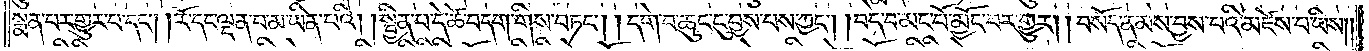སྨན་པར་གྱུར་པ་དང༌། །རོ་དང་ལྡན་པ་མ་ཡིན་པའི། །སྦྱིན་པ་དེ་ཚེ་བདག་གིས་བཏང༌། །དགེ་བ་ཆུང་ངུ་བྱས་པས་ཀྱང༌། །བདེ་བ་མང་པོ་མྱོང་བར་གྱུར། །བསོད་ནམས་བྱས་པའི་མཛེས་པ་ཡིས༎
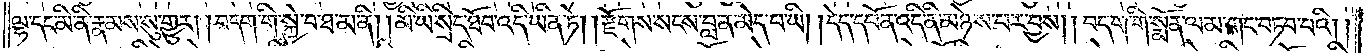ལྷ་དང་མི་ནི་རྣམས་སུ་གྱུར། །བདག་གི་སྐྱེ་བ་ཐ་མ་ནི། །མི་ཡི་སྲིད་ཐོབ་འདི་ཡིན་ཏེ། །རྫོགས་སངས་བླ་ན་མེད་པ་ཡི། །དེད་དཔོན་འདི་ནི་མཉེས་པར་བྱས། །བདག་གི་སྨོན་ལམ་གང་བཏབ་པའི། །
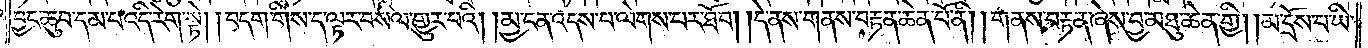བྱང་ཆུབ་དམ་པ་འདི་རེག་སྟེ། །བདག་གིས་ད་ལྟར་བསིལ་གྱུར་པའི། །མྱ་ངན་འདས་པ་ལེགས་པར་ཐོབ། །དེ་ནས་གནས་བརྟེན་ཆེན་པོ་ནི། །གནས་བརྟེན་ཞེས་བྱ་མཐུ་ཆེན་གྱི། །མ་དྲོས་པ་ཡི་
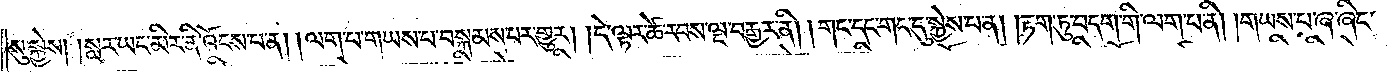སུ་སྐྱེས། །སླར་ཡང་མིར་ནི་འོངས་པ་ན། །ལག་པ་གཡས་པ་བསྐམས་པར་གྱུར། །དེ་ལྟར་ཚེ་རབས་ལྔ་བརྒྱར་ནི། །གང་དང་གང་དུ་སྐྱེས་པ་ན། །རྟག་ཏུ་བདག་གི་ལག་པ་ནི། །གཡས་པ་ཞ་ཞིང་
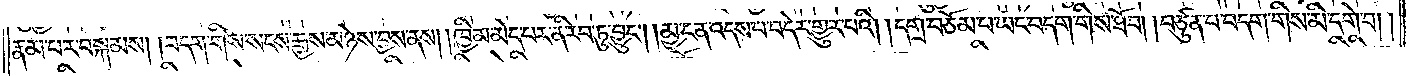རྣམ་པར་བསྐམས། །བདག་གིས་སངས་རྒྱས་མཉེས་བྱས་ནས། །ཁྱིམ་མེད་པར་ནི་རབ་ཏུ་བྱུང༌། །མྱ་ངན་འདས་པ་བདེར་གྱུར་པའི། །དགྲ་བཅོམ་པ་ཡང་བདག་གིས་ཐོབ། །བཙུན་པ་བདག་གིས་མི་དགེ་བ། །
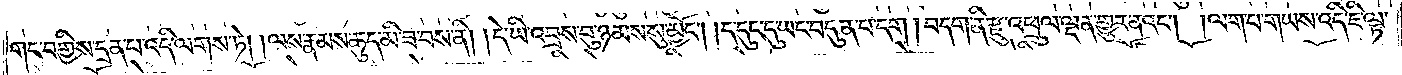གང་བགྱིས་དྲན་པ་འདི་ལགས་ཏེ། །ལས་རྣམས་ཆུད་མི་ཟ་བས་ནི། །དེ་ཡི་འབྲས་བུ་ཉམས་སུ་མྱོང༌། །ད་དུང་དུ་ཡང་བདུན་པ་དག། བདག་ནི་རྫུ་འཕྲུལ་ལྡན་གྱུར་ནའང༌། །ལག་པ་གཡས་འདི་ཇི་ལྟ་
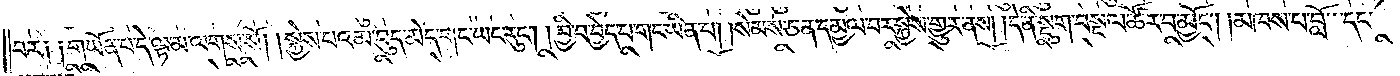བར༑ ༑གཡོན་པ་དེ་ལྟ་མ་ལགས་སོ། །སྐྱེས་པའམ་བུད་མེད་གང་ཡང་རུང༌། །བྱི་བ་བྱེད་པ་གང་ཡིན་པ། །སེམས་ཅན་དམྱལ་བར་སྐྱེས་གྱུར་ནས། །དེ་ནི་སྡུག་བསྔལ་ཚོར་བ་མྱོང༌། །མཁས་པ་བློ་དང་
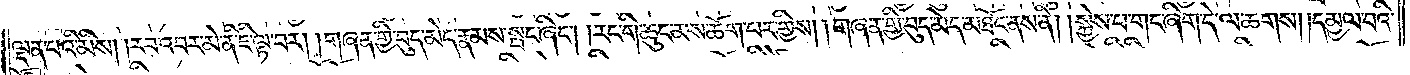ལྡན་པའི་མིས། །རབ་འབར་མེ་ནི་ཇི་ལྟ་བར། །གཞན་གྱི་བུད་མེད་རྣམས་སྤང་ཞིང༌། །རང་གི་ཆུང་མས་ཆོག་པར་གྱིས། །གཞན་གྱི་བུད་མེད་མཐོང་ནས་ནི། །སྐྱེས་པ་གང་ཞིག་དེ་ལ་ཆགས། །དམྱལ་བའི་
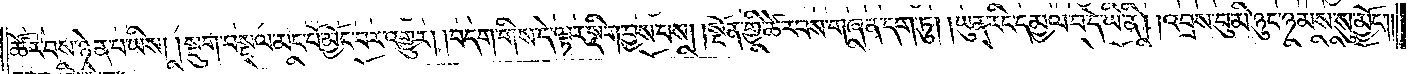ཚོར་བས་ཉེན་པ་ཡིས། །སྡུག་བསྔལ་མང་པོ་མྱོང་བར་འགྱུར། །བདག་གིས་དེ་ལྟར་སྡིག་བྱས་པས། །སྔོན་གྱི་ཚེ་རབས་གཞན་དག་ཏུ། །ཡུན་རིང་དམྱལ་བ་དེ་ཡི་ནི། །འབྲས་བུ་མི་ཉུང་ཉམས་སུ་མྱོང༌༎
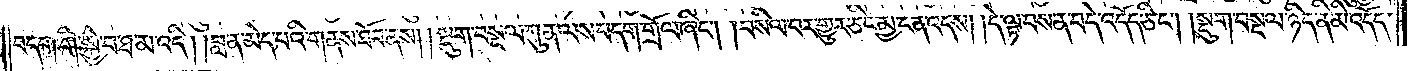བདག་གི་སྐྱེ་བ་ཐ་མ་འདི། །བླ་ན་མེད་པའི་གནས་ཐོབ་ནས། །སྡུག་བསྔལ་ཀུན་ལས་བདག་གྲོལ་ཞིང༌། །བསིལ་བར་གྱུར་ཅིང་མྱ་ངན་འདས། །དེ་ལྟ་བས་ན་བདེ་འདོད་ཅིང༌། །སྡུག་བསྔལ་ཉིད་ནི་མི་འདོད་
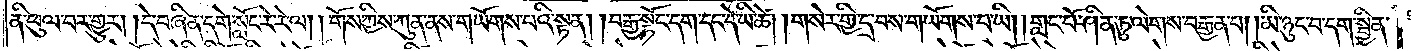ནི་ཕུལ་བར་གྱུར། །དེ་བཞིན་དགེ་སློང་རེ་རེ་ལ། །གོས་ཀྱིས་ཀུན་ནས་གཡོགས་པའི་སྟན། །བརྒྱ་སྟོང་དག་དང་དེ་ཡི་ཚེ། །གསེར་གྱི་དྲ་བས་གཡོགས་པ་ཡི། །གླང་པོ་ཤིན་ཏུ་ལེགས་བརྒྱན་པ། །མི་ཉུང་བ་དག་སྦྱིན་
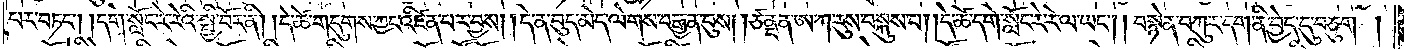པར་བཏང༌། །དགེ་སློང་རེ་རེའི་སྤྱི་བོར་ནི། །དེ་ཚེ་གདུགས་ཀྱང་འཛིན་པར་བྱས། །དེ་ན་བུད་མེད་ལེགས་བརྒྱན་བུས། །ཙནྡན་ཨ་ཀ་རུས་བསྐུས་པ། །དེ་ཚེ་དགེ་སློང་རེ་རེ་ལ་ཡང༌། །བསྙེན་བཀུར་དག་ནི་བྱེད་དུ་བཅུག།
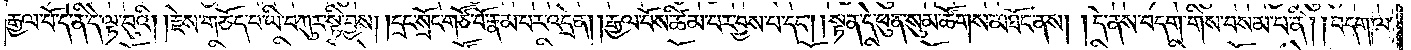རྒྱལ་པོ་དེ་ནི་དེ་ལྟ་བུའི། །རྗེས་གཅོད་པ་ཡི་བཀུར་སྟི་བྱས། །དྲང་སྲོང་གཙོ་བོ་རྣམ་པར་འདྲེན། །རྒྱལ་པོས་ཚིམ་པར་བྱས་པ་དང༌། །སྟན་དེ་ཕུན་སུམ་ཚོགས་མཐོང་ནས། །དེ་ནས་བདག་གིས་བསམ་པ་ནི། །བདག་ལ་
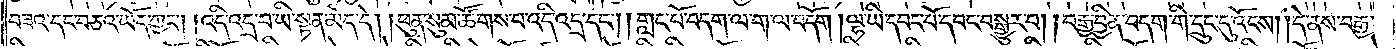བཟའ་དང་བཅའ་ཡོད་ཀྱང༌། །འདི་འདྲ་བ་ཡི་སྟན་མེད་དེ། །ཕུན་སུམ་ཚོགས་པ་འདི་འདྲ་དང༌། །གླང་པོ་བདག་ལ་ག་ལ་བདོག །ལྷ་ཡི་དབང་པོ་དབང་བསྒྱུར་བ། །བརྒྱ་བྱིན་བདག་གི་དྲུང་དུ་འོངས། །དེ་ནས་བརྒྱ་
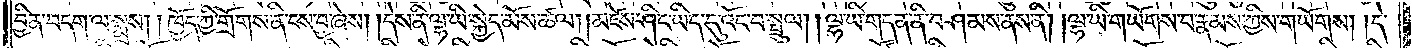བྱིན་བདག་ལ་སྨྲས། །ཁྱོད་ཀྱི་གྲོགས་ནི་ངས་བྱ་ཞེས། །དེས་ནི་ལྷ་ཡི་སྐྱེད་མོས་ཚལ། །མཛེས་ཤིང་ཡིད་དུ་འོང་བ་སྦྲུལ། །ལྷ་ཡི་གདན་ནི་བཤམས་ནས་ནི། །ལྷ་ཡི་གཡོགས་པ་རྣམས་ཀྱིས་གཡོགས། །དེ་
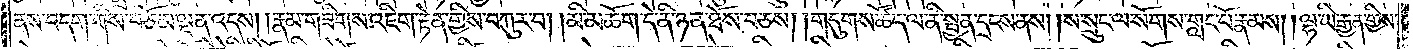ནས་བདག་གིས་བཅོམ་ལྡན་འདས། །རྣམ་གཟིགས་འཇིག་རྟེན་གྱིས་བཀུར་བ། །མི་མཆོག་དེ་ནི་ཉན་ཐོས་བཅས། །གདུགས་ཚོད་ལ་ནི་སྤྱན་དྲངས་ནས། །ས་སྲུང་ལ་སོགས་གླང་པོ་རྣམས། །ལྷ་ཡི་རྒྱན་གྱིས་
